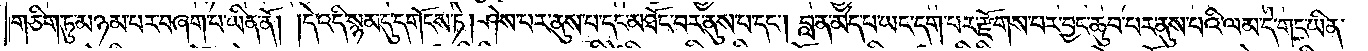གཅིག་ཏུ་མཉམ་པར་བཞག་པ་ཡིན་ནོ། །དེ་འདི་སྙམ་དུ་དགོངས་ཏེ། ཤེས་པར་ནུས་པ་དང་མཐོང་བར་ནུས་པ་དང༌། བླ་ན་མེད་པ་ཡང་དག་པར་རྫོགས་པར་བྱང་ཆུབ་པར་ནུས་པའི་ལམ་དེ་གང་ཡིན་
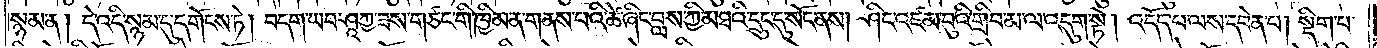སྙམ་ན། དེ་འདི་སྙམ་དུ་དགོངས་ཏེ། བདག་ཡང་ཤཱཀྱ་ཟས་གཙང་གི་ཁྱིམ་ན་གནས་པའི་ཚེ་ཞིང་བླས་ཀྱི་མཐའི་དྲུང་དུ་སོང་ནས། ཤིང་འཛམ་བུའི་གྲིབ་མ་ལ་འདུག་སྟེ། འདོད་པ་ལས་དབེན་པ། སྡིག་པ་
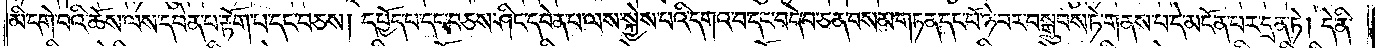མི་དགེ་བའི་ཆོས་ལས་དབེན་པ་རྟོག་པ་དང་བཅས། དཔྱོད་པ་དང་བཅས་ཤིང་དཔེན་པ་ལས་སྐྱེས་པའི་དགའ་བ་དང་བདེ་བ་ཅན་བསམ་གཏན་དང་པོ་ཉེ་བར་བསྒྲུབས་ཏེ་གནས་པ་དེ་མངོན་པར་དྲན་ཏེ། དེ་ནི་
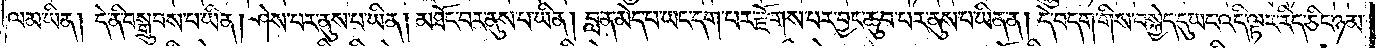ལམ་ཡིན། དེ་ནི་བསྒྲུབས་པ་ཡིན། ཤེས་པར་ནུས་པ་ཡིན། མཐོང་བར་ནུས་པ་ཡིན། བླ་ན་མེད་པ་ཡང་དག་པར་རྫོགས་པར་བྱང་ཆུབ་པར་ནུས་པ་ཡིན་ན། དེ་བདག་གིས་བསྐྱེད་དུ་ཡང་འདི་ལྟར་རིད་ཅིང་ཉམ་
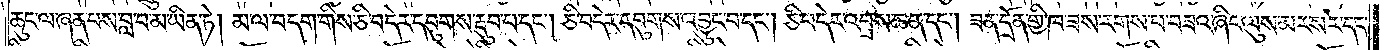ཆུང་ལ་ཞན་པས་བླ་བ་མ་ཡིན་ཏེ། མ་ལ་བདག་གིས་ཅི་བདེར་དབུགས་རྔུབ་པ་དང༌། ཅི་བདེར་དབུགས་འབྱུང་བ་དང༌། ཅི་བདེར་འབྲས་ཆན་དང༌། ཟན་དྲོན་གྱི་ཁ་ཟས་རགས་པ་བཟའ་ཞིང་ལུས་མར་སར་དང་
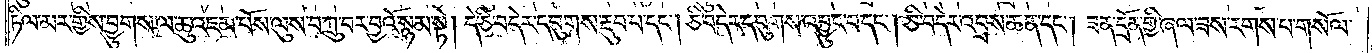ཏིལ་མར་གྱིས་བྱུགས་ལ་ཆུ་འཇམ་པོས་ལུས་བཀྲུ་བར་བྱའོ་སྙམ་སྟེ། དེ་ཅི་བདེར་དབུགས་རྔུབ་པ་དང༌། ཅི་བདེར་དབུགས་འབྱུང་བ་དང༌། ཅི་བདེར་འབྲས་ཆན་དང༌། ཟན་དྲོན་གྱི་ཞལ་ཟས་རགས་པ་གསོལ་
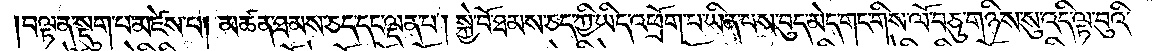བལྟ་ན་སྡུག་པ་མཛེས་པ། མཚན་ཐམས་ཅད་དང་ལྡན་པ། སྐྱེ་བོ་ཐམས་ཅད་ཀྱི་ཡིད་འཕྲོག་པ་ཡིན་པས་བུད་མེད་གང་གིས་ལོ་བཅུ་གཉིས་སུ་འདི་ལྟ་བུའི་
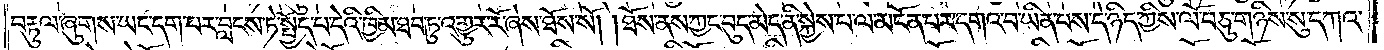བརྟུལ་ཞུགས་ཡང་དག་པར་བླངས་ཏེ་སྤྱོད་པ་དེའི་ཁྱིམ་ཐབ་ཏུ་འགྱུར་རོ་ཞེས་ཐོས་སོ། །ཐོས་ནས་ཀྱང་བུད་མེད་ནི་སྐྱེས་པ་ལ་མངོན་པར་དགའ་བ་ཡིན་པས་དེ་ཉིད་ཀྱིས་ལོ་བཅུ་གཉིས་སུ་དཀའ་
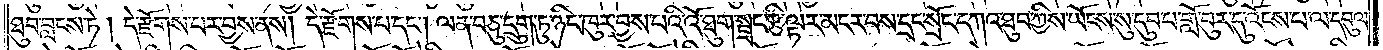ཐུབ་བླངས་ཏེ། དེ་རྫོགས་པར་བྱས་ནས། དེ་རྫོགས་པ་དང༌། ལན་བཅུ་དྲུག་ཏུ་ཉིང་ཁུར་བྱས་པའི་འོ་ཐུག་སྦྲང་རྩི་ལྟར་མངར་བས་དྲང་སྲོང་དཀའ་ཐུབ་ཀྱིས་ཡོངས་སུ་དབུ་པ་གློ་བུར་དུ་འོངས་པ་ལ་དབུལ་
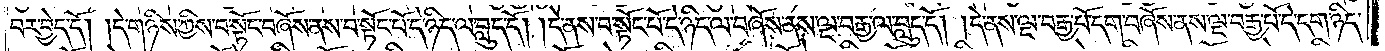བར་བྱེད་དོ། །དེ་གཉིས་ཀྱིས་བ་སྟོང་བཞོས་ནས་བ་སྟོང་པོ་དེ་ཉིད་ལ་བླུད་དོ། །དེ་ནས་བ་སྟོང་པོ་དེ་ཉིད་ལ་བཞོས་ནས་ལྔ་བརྒྱ་ལ་བླུད་དོ། །དེ་ནས་ལྔ་བརྒྱ་པོ་དག་བཞོས་ནས་ལྔ་བརྒྱ་པོ་དེ་དག་ཉིད་
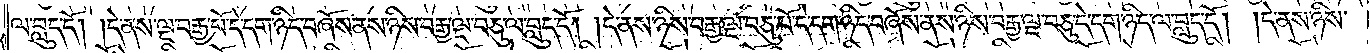ལ་བླུད་དོ། །དེ་ནས་ལྔ་བརྒྱ་པོ་དེ་དག་ཉིད་བཞོས་ནས་ཉིས་བརྒྱ་ལྔ་བཅུ་ལ་བླུད་དོ། །དེ་ནས་ཉིས་བརྒྱ་ལྔ་བཅུ་པོ་དེ་དག་ཉིད་བཞོས་ནས་ཉིས་བརྒྱ་ལྔ་བཅུ་དེ་དག་ཉིད་ལ་བླུད་དོ། །དེ་ནས་ཉིས་
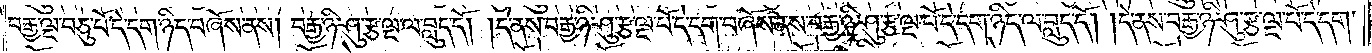བརྒྱ་ལྔ་བཅུ་པོ་དེ་དག་ཉིད་བཞོས་ནས། བརྒྱ་ཉི་ཤུ་རྩ་ལྔ་ལ་བླུད་དོ། །དེ་ནས་བརྒྱ་ཉི་ཤུ་རྩ་ལྔ་པོ་དེ་དག་བཞོས་ནས་བརྒྱ་ཉི་ཤུ་རྩ་ལྔ་པོ་དེ་དག་ཉིད་ལ་བླུད་དོ། །དེ་ནས་བརྒྱ་ཉི་ཤུ་རྩ་ལྔ་པོ་དེ་དག་
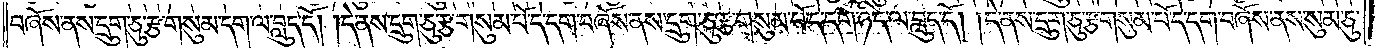བཞོས་ནས་དྲུག་ཅུ་རྩ་གསུམ་དག་ལ་བླུད་དོ། །དེ་ནས་དྲུག་ཅུ་རྩ་གསུམ་པོ་དེ་དག་བཞོས་ནས་དྲུག་ཅུ་རྩ་གསུམ་པོ་དེ་དག་ཉིད་ལ་བླུད་དོ། །དེ་ནས་དྲུག་ཅུ་རྩ་གསུམ་པོ་དེ་དག་བཞོས་ནས་སུམ་ཅུ་
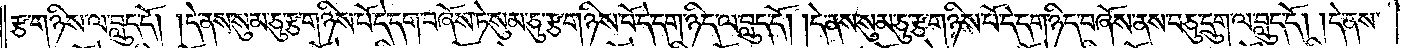རྩ་གཉིས་ལ་བླུད་དོ། །དེ་ནས་སུམ་ཅུ་རྩ་གཉིས་པོ་དེ་དག་བཞོས་ཏེ་སུམ་ཅུ་རྩ་གཉིས་པོ་དེ་དག་ཉིད་ལ་བླུད་དོ། །དེ་ནས་སུམ་ཅུ་རྩ་གཉིས་པོ་དེ་དག་ཉིད་བཞོས་ནས་བཅུ་དྲུག་ལ་བླུད་དོ། །དེ་ནས་
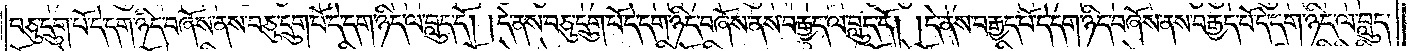བཅུ་དྲུག་པོ་དེ་དག་ཉིད་བཞོས་ནས་བཅུ་དྲུག་པོ་དེ་དག་ཉིད་ལ་བླུད་དོ། །དེ་ནས་བཅུ་དྲུག་པོ་དེ་དག་ཉིད་བཞོས་ནས་བརྒྱད་ལ་བླུད་དོ། །དེ་ནས་བརྒྱད་པོ་དེ་དག་ཉིད་བཞོས་ནས་བརྒྱད་པོ་དེ་དག་ཉིད་ལ་བླུད་
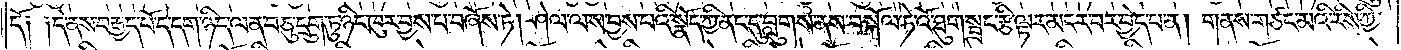དོ། །དེ་ནས་བརྒྱད་པོ་དེ་དག་ཉིད་ལན་བཅུ་དྲུག་ཏུ་ཉིང་ཁུར་བྱས་པ་བཞོས་ཏེ། ཤེལ་ལས་བྱས་པའི་སྣོད་ཀྱི་ནང་དུ་བླུགས་ནས་བསྐོལ་ཏེ་འོ་ཐུག་སྦྲང་རྩི་ལྟར་མངར་བར་བྱེད་པ་ན། གནས་གཙང་མའི་རིས་ཀྱི་
